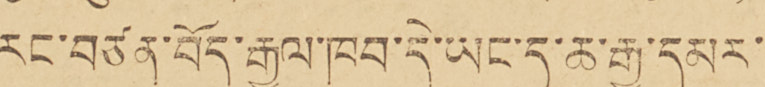རང་བཙན་བོད་རྒྱལ་ཁབ་དེ་ཡང་ད་ཆ་རྒྱ་དམར་
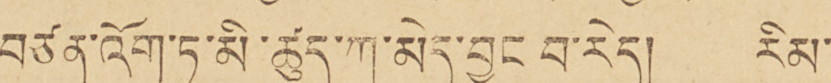བཙན་འོག་ཏུ་མི་ཚུད་ཀ་མེད་བྱུང བ་རེད། རིམ་
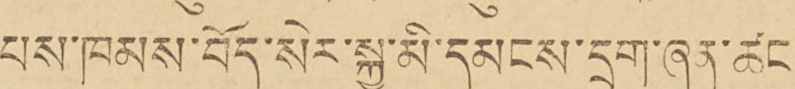པས་ཁམས་བོད་སེར་སྐྱ་མི་མངས་དྲག་ཞན་ཚང་
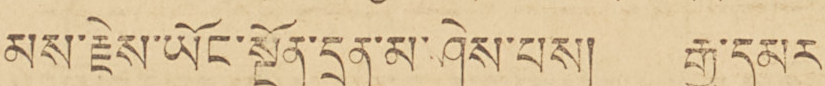མས་རྗེས་ཡོང་སྔོན་དྲན་མ་ཤེས་པས། རྒྱ་དམར་
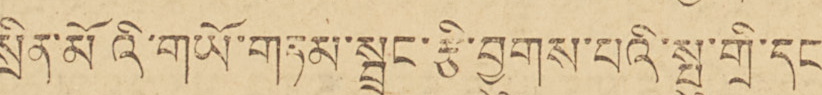སྲིན་མོའི་གཡོ་གཏམ་སྦྲང་རྩི་བྱུགས་པའི་སྤུ་གྲི་དང་
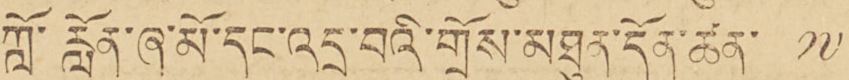ཀློ་རློན་ཞྭ་མོ་དང་འདྲ་བའི་གྲོས་མཐུན་དོན་ཚན་ ༡༧
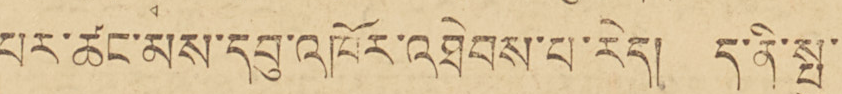པར་ཚང་མས་དབུ་འཁོར་འཐེབས་པ་རེད། ད་ནི་སྤུ་
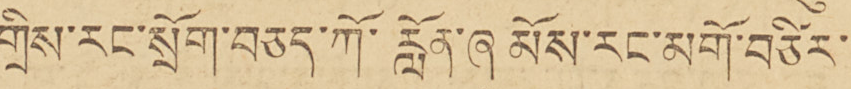གྲིས་རང་སྲོག་བཅད་ཀོ་རློན་ཞྭ མོས་རང་མགོ་བཙིར་
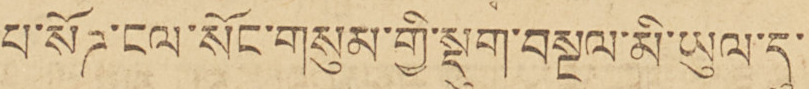པ་སོཊ་ངལ་སོང་གསུམ་གྱི་སྡུག་བསྔལ་མི་ཡུལ་དུ་
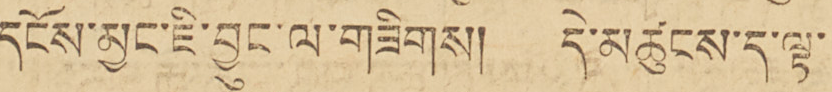དངོས་མྱང་ཇི་བྱུང་ལ་གཟིགས། དེ་མཚུངས་ད་ལྟ་
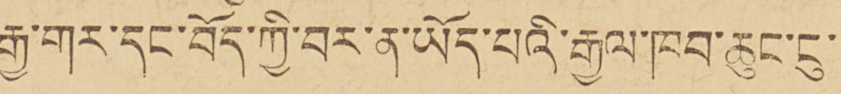རྒྱ་གར་དང་བོད་ཀྱི་བར་ན་ཡོད་པའི་རྒྱལ་ཁབ་ཆུང་ངུ་
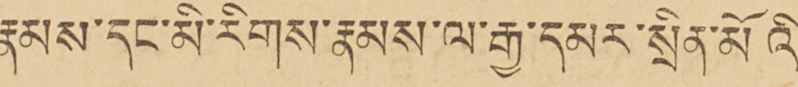རྣམས་དང་མི་རིགས་རྣམས་ལ་རྒྱ་དམར་སྲིན་མོའི་
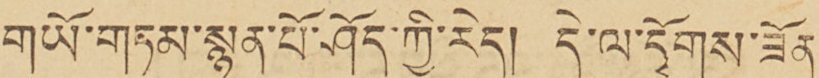གཡོ་གཏམ་སྙན་པོ་ཤོད་ཀྱི་རེད། དེ་ལ་དྭོགས་ཟོན་
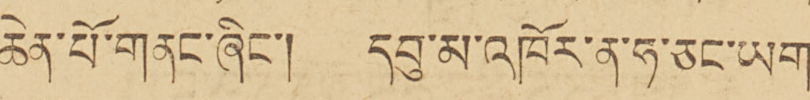ཆེན་པོ་གནང་ཞིང་། དབུ་མ་འཁོར་ན་ཧ་ཅང་ཡག་
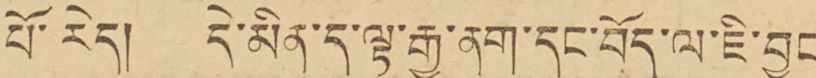པོ་རེད། དེ་མིན་ད་ལྟ་རྒྱ་ནག་དང་བོད་ལ་ཇི་བྱུང་
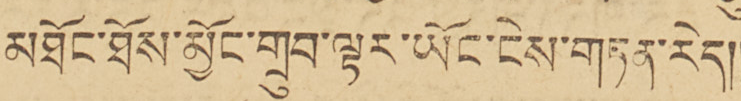མཐོང་ཐོས་བྱོང་གྲུབ་ལྟར་ཡོང་ངེས་གཏན་རེད།།
